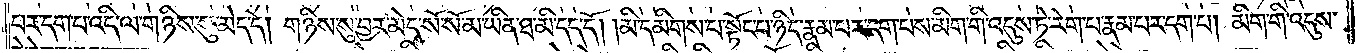པར་དག་པ་འདི་ལ་གཉིས་སུ་མེད་དེ། གཉིས་སུ་བྱར་མེད་སོ་སོ་མ་ཡིན་ཐ་མི་དད་དོ། །མི་དམིགས་པ་སྟོང་པ་ཉིད་རྣམ་པར་དག་པས་མིག་གི་འདུས་ཏེ་རེག་པ་རྣམ་པར་དག་པ། མིག་གི་འདུས་
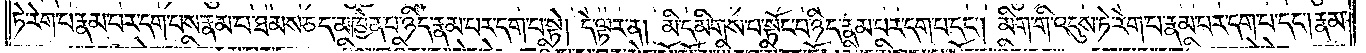ཏེ་རེག་པ་རྣམ་པར་དག་པས་རྣམ་པ་ཐམས་ཅད་མཁྱེན་པ་ཉིད་རྣམ་པར་དག་པ་སྟེ། དེ་ལྟར་ན། མི་དམིགས་པ་སྟོང་པ་ཉིད་རྣམ་པར་དག་པ་དང༌། མིག་གི་འདུས་ཏེ་རེག་པ་རྣམ་པར་དག་པ་དང༌། རྣམ་
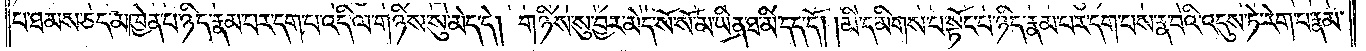པ་ཐམས་ཅད་མཁྱེན་པ་ཉིད་རྣམ་པར་དག་པ་འདི་ལ་གཉིས་སུ་མེད་དེ། གཉིས་སུ་བྱར་མེད་སོ་སོ་མ་ཡིན་ཐ་མི་དད་དོ། །མི་དམིགས་པ་སྟོང་པ་ཉིད་རྣམ་པར་དག་པས་རྣ་བའི་འདུས་ཏེ་རེག་པ་རྣམ་
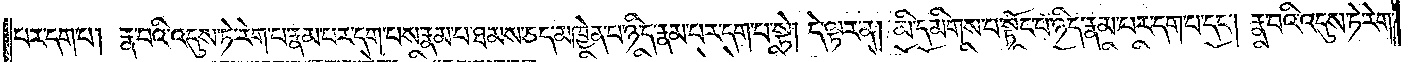པར་དག་པ། རྣ་བའི་འདུས་ཏེ་རེག་པ་རྣམ་པར་དག་པས་རྣམ་པ་ཐམས་ཅད་མཁྱེན་པ་ཉིད་རྣམ་པར་དག་པས་ཏེ། དེ་ལྟར་ན། མི་དམིགས་པ་སྟོང་པ་ཉིད་རྣམ་པར་དག་པ་དང༌། རྣ་བའི་འདུས་ཏེ་རེག་
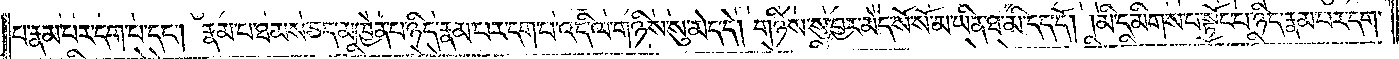པ་རྣམ་པར་དག་པ་དང༌། རྣམ་པ་ཐམས་ཅད་མཁྱེན་པ་ཉིད་རྣམ་པར་དག་པ་འདི་ལ་གཉིས་སུ་མེད་དེ། གཉིས་སུ་བྱར་མེད་སོ་སོ་མ་ཡིན་ཐ་མི་དད་དོ། །མི་དམིགས་པ་སྟོང་པ་ཉིད་རྣམ་པར་དག་
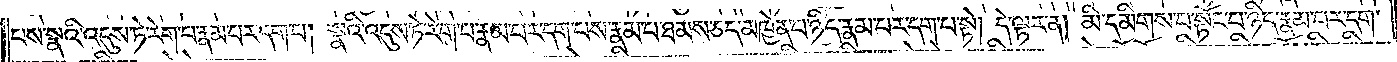པས་སྣའི་འདུས་ཏེ་རེག་པ་རྣམ་པར་དག་པ། སྣའི་འདུས་ཏེ་རེག་པ་རྣམ་པར་དག་པས་རྣམ་པ་ཐམས་ཅད་མཁྱེན་པ་ཉིད་རྣམ་པར་དག་པ་སྟེ། དེ་ལྟར་ན། མི་དམིགས་པ་སྟོང་པ་ཉིད་རྣམ་པར་དག་
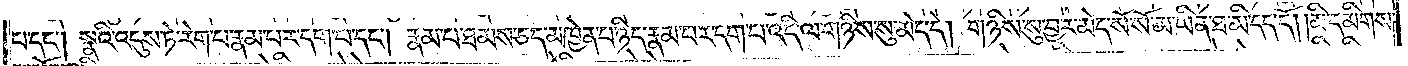པ་དང༌། སྣའི་འདུས་ཏེ་རེག་པ་རྣམ་པར་དག་པ་དང༌། རྣམ་པ་ཐམས་ཅད་མཁྱེན་པ་ཉིད་རྣམ་པར་དག་པ་འདི་ལ་གཉིས་སུ་མེད་དེ། གཉིས་སུ་བྱར་མེད་སོ་སོ་མ་ཡིན་ཐ་མི་དད་དོ། །མི་དམིགས་
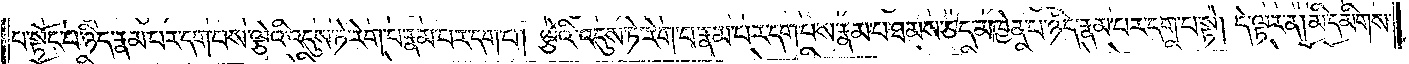པ་སྟོང་པ་ཉིད་རྣམ་པར་དག་པས་ལྕེའི་འདུས་ཏེ་རེག་པ་རྣམ་པར་དག་པ། ལྕེའི་འདུས་ཏེ་རེག་པ་རྣམ་པར་དག་པས་རྣམ་པ་ཐམས་ཅད་མཁྱེན་པ་ཉིད་རྣམ་པར་དག་པ་སྟེ། དེ་ལྟར་ན། མི་དམིགས་
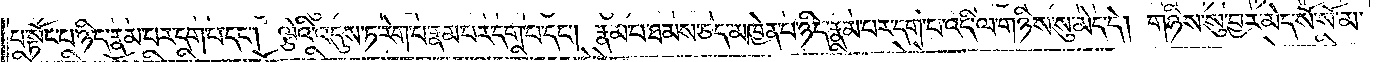པ་སྟོང་པ་ཉིད་རྣམ་པར་དག་པ་དང༌། ལྕེའི་འདུས་ཏེ་རེག་པ་རྣམ་པར་དག་པ་དང༌། རྣམ་པ་ཐམས་ཅད་མཁྱེན་པ་ཉིད་རྣམ་པར་དག་པ་འདི་ལ་གཉིས་སུ་མེད་དེ། གཉིས་སུ་བྱར་མེད་སོ་སོ་མ་
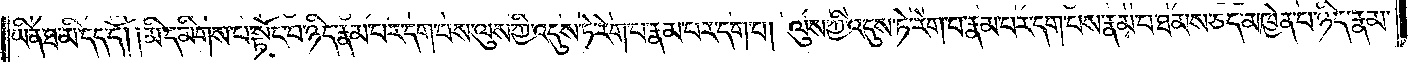ཡིན་ཐ་མི་དད་དོ། །མི་དམིགས་པ་སྟོང་པ་ཉིད་རྣམ་པར་དག་པས་ལུས་ཀྱི་འདུས་ཏེ་རེག་པ་རྣམ་པར་དག་པ། ལུས་ཀྱི་འདུས་ཏེ་རེག་པ་རྣམ་པར་དག་པས་རྣམ་པ་ཐམས་ཅད་མཁྱེན་པ་ཉིད་རྣམ་
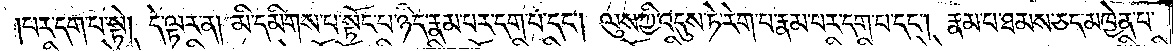པར་དག་པ་སྟེ། དེ་ལྟར་ན། མི་དམིགས་པ་སྟོང་པ་ཉིད་རྣམ་པར་དག་པ་དང༌། ལུས་ཀྱི་འདུས་ཏེ་རེག་པ་རྣམ་པར་དག་པ་དང༌། རྣམ་པ་ཐམས་ཅད་མཁྱེན་པ་
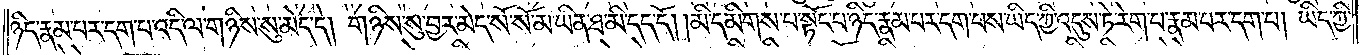ཉིད་རྣམ་པར་དག་པ་འདི་ལ་གཉིས་སུ་མེད་དེ། གཉིས་སུ་བྱར་མེད་སོ་སོ་མ་ཡིན་ཐ་མི་དད་དོ། །མི་དམིགས་པ་སྟོང་པ་ཉིད་རྣམ་པར་དག་པས་ཡིད་ཀྱི་འདུས་ཏེ་རེག་པ་རྣམ་པར་དག་པ། ཡིད་ཀྱི་
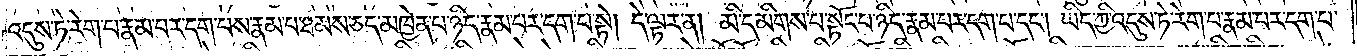འདུས་ཏེ་རེག་པ་རྣམ་པར་དག་པས་རྣམ་པ་ཐམས་ཅད་མཁྱེན་པ་ཉིད་རྣམ་པར་དག་པ་སྟེ། དེ་ལྟར་ན། མི་དམིགས་པ་སྟོང་པ་ཉིད་རྣམ་པར་དག་པ་དང༌། ཡིད་ཀྱི་འདུས་ཏེ་རེག་པ་རྣམ་པར་དག་པ་
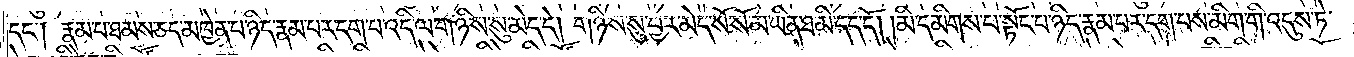དང༌། རྣམ་པ་ཐམས་ཅད་མཁྱེན་པ་ཉིད་རྣམ་པར་དག་པ་འདི་ལ་གཉིས་སུ་མེད་དེ། གཉིས་སུ་བྱར་མེད་སོ་སོ་མ་ཡིན་ཐ་མི་དད་དོ། །མི་དམིགས་པ་སྟོང་པ་ཉིད་རྣམ་པར་དག་པས་མིག་གི་འདུས་ཏེ་
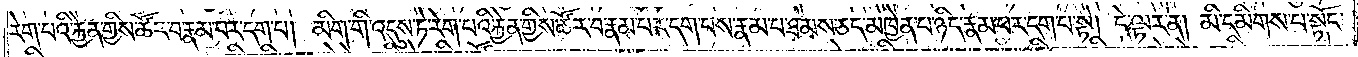རེག་པའི་རྐྱེན་གྱིས་ཚོར་བ་རྣམ་པར་དག་པ། མིག་གི་འདུས་ཏེ་རེག་པའི་རྐྱེན་གྱིས་ཚོར་བ་རྣམ་པར་དག་པས་རྣམ་པ་ཐམས་ཅད་མཁྱེན་པ་ཉིད་རྣམ་པར་དག་པ་སྟེ། དེ་ལྟར་ན། མི་དམིགས་པ་སྟོང་
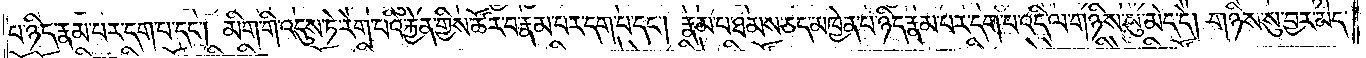པ་ཉིད་རྣམ་པར་དག་པ་དང༌། མིག་གི་འདུས་ཏེ་རེག་པའི་རྐྱེན་གྱིས་ཚོར་བ་རྣམ་པར་དག་པ་དང༌། རྣམ་པ་ཐམས་ཅད་མཁྱེན་པ་ཉིད་རྣམ་པར་དག་པ་འདི་ལ་གཉིས་སུ་མེད་དེ། གཉིས་སུ་བྱར་མེད་
